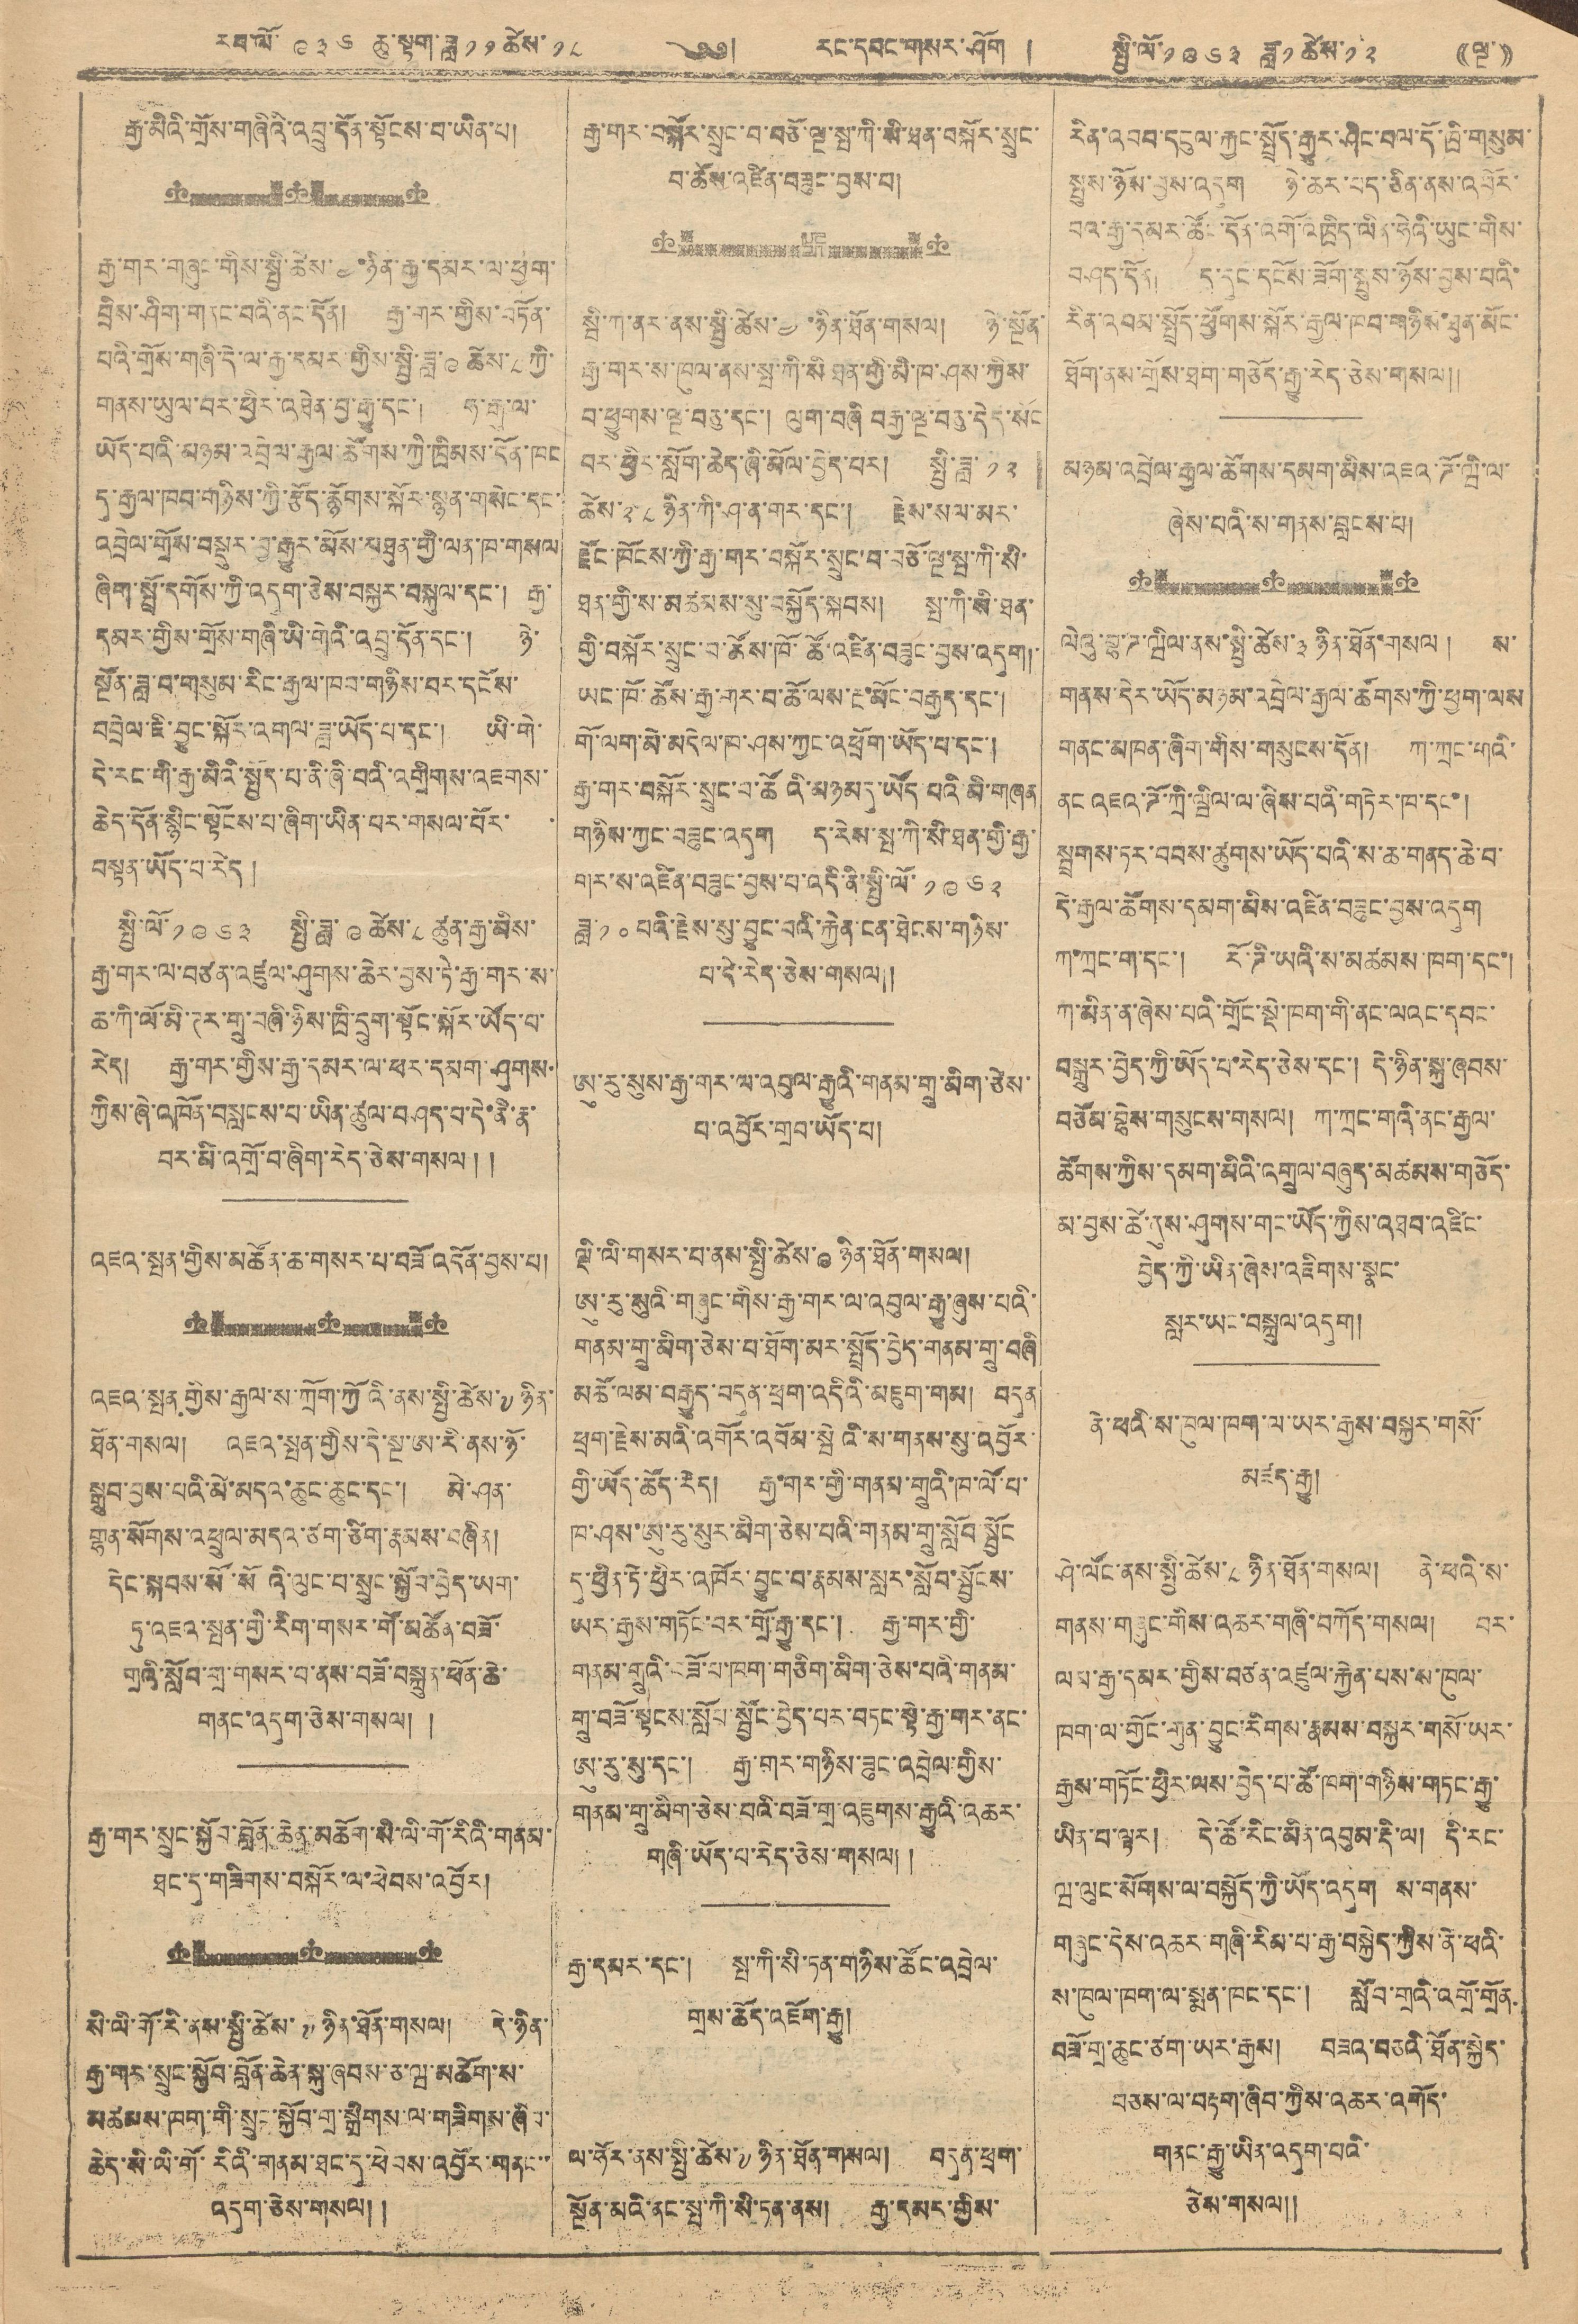རབ་ལོ་ ༩༣༦ ཆུ་སྟག་ཟླ ༡༡ ཚེས་ ༡༨ ༄༅། རང་དབང་གསར་ཤོག ། སྤྱི་ལོ་ ༡༩༦༣ ཟླ་ ༡ ཚེས་ ༡༢ ((ལྔ་))
རྒྱ་མིའི་གྲོས་གཞིའི་འབྲུ་དོན་སྟོངས་པ་ཡིན་པ།
རྒྱ་གར་གཞུང་གིས་སྤྱི་ཚེས་ ༤ ཉིན་རྒྱ་དམར་ལ་ཕྱག་
བྲིས་ཤིག་གནང་བའི་ནང་དོན། རྒྱ་གར་གྱིས་བཏོན་
པའི་གྲོས་གཞི་དེ་ལ་རྒྱ་དམར་གྱིས་སྤྱི་ཟླ་༩ ཚེས་༨ ཀྱི་
གནས་ཡུལ་བར་ཕྱིར་འཐེན་བྱ་རྒྱུ་དང་། ཧ་རྒུ་ལ་
ཡོད་པའི་མཉམ་འབྲེལ་རྒྱལ་ཚོགས་ཀྱི་ཁྲིམས་དོན་ཁང
དུ་རྒྱལ་ཁབ་གཉིས་ཀྱི་རྩོད་རྙོགས་སྐོར་སྙན་གསེང་དང་
འབྲེལ་གྲོས་བསྡུར་བྱ་རྒྱུར་མོས་མཐུན་གྱི་ལན་ཁ་གསལ
ཞིག་སྤྲོ་དགོས་ཀྱི་འདུག་ཅེས་བསྐྱར་བསྐུལ་དང་། རྒྱ་
དམར་གྱིས་གྲོས་གཞི་ཡི་གེའི་འབྲུ་དོན་དང་། ཉེ་
སྔོན་ཟླ་བ་གསུམ་རིང་རྒྱལ་ཁབ་གཉིས་བར་དངོས་
བབྲེལ་ཇི་བྱུང་སྐོར་འགལ་ཟླ་ཡོད་པ་དང་། ཡི་གེ་
དེ་རང་གི་རྒྱ་མིའི་སྤྱོད་པ་ནི་ཞི་བའི་འགྲིགས་འཇགས་
ཆེད་དོན་སྙིང་སྟོངས་པ་ཞིག་ཡིན་པར་གསལ་པོར་
བསྟན་ཡོད་པ་རེད།
སྤྱི་ལོ་ ༡༩༦༣ སྤྱི་ཟླ་ ༩ ཚེས་༨ ཚུན་རྒྱ་མིས་
རྒྱ་གར་ལ་བརྩན་འཛུལ་ཤུགས་ཆེར་བྱས་ཏེ་རྒྱ་གར་ས་
ཆ་ཀི་ལོ་མི་ཊར་གྲུ་བཞི་ཉིས་ཁྲི་དྲུག་སྐོར་ཡོད་པ་
རེད། རྒྱ་གར་གྱིས་རྒྱ་དམར་ལ་ཕར་དམག་ཤུགས་
ཀྱིས་ཞེ་འཁོན་བསླངས་པ་ཡིན་ཚུལ་བཤད་བ་དེ་ནི་རྣ་
བར་མི་འགྲོ་བ་ཞིག་རེད་ཅེས་གསལ ། །
འཇའ་སྤན་གྱིས་མཚོན་ཆ་གསར་པ་བཟོས་འདོན་བྱས་པ།
འཇའ་སྤན གྱིས་རྒྱལ་ས་ཀྲོག་ཀྱོའི་ནས་སྤྱི་ཚེས་༧ ཉིན་
ཐོན་གསལ། འཇའ་སྤན་གྱིས་དེ་སྔ་ཨ་རི་ནས་ཉོ་
སྒྲུབ་བྱས་པའི་མེ་མདའ་ཆུང་ཆུང་དང་། མེ་ཤན་
གྷན་སོགས་འཕྲུལ་མདའ་ཙག་ཙིག་རྣམས་བཞིན།
དེང་སྐབས་སོ་སོའི་ལུང་བ་སྲུང་སྐྱོབ་བྱེད་ཡག་
ཏུ་འཇའ་སྤན་གྱི་རིག་གསར་གོ་མཚོན་བཟོ་
གྲའི་སློབ་གྲ་གསར་པ་ནས་བཟོ་བསྐྲུན་ཕོན་ཆེ་
གནང་འདུག་ཅེས་གསལ། །
རྒྱ་གར་སྲུང་སྐྱོབ་བློན་ཆེན་མཆོག་སི་ལི་གོ་རིའི་གནམ་
ཐང་དུ་གཟིགས་བསྐོར་ལ་ཕེབས་འབྱོར།
སི་ལི་གོ་རི་ནས་སྤྱི་ཚེས་ ༧ ཉིན་ཐོན་གསལ། དེ་ཉིན་
རྒྱ་གར་སྲུང་སྐྱོབ་བློན་ཆེན་སྐུ་ཞབས་ཅ་ཝ་མཆོག་ས་
མཚམས་ཁག་གི་སྲུང་སྐྱོབ་གྲ་སྒྲིགས་ལ་གཟིགས་ཞིབ་
ཆེད་སི་ལི་གོ་རིའི་གནམ་ཐང་དུ་ཕེབས་འབྱོར་གནང་་
འདུག་ཅེས་གསལ། །
རྒྱ་གར་བསྐོར་སྲུང་བ་བཅོ་ལྔ་སྤ་ཀི་སི་ཐན་བསྐོར་སྲུང་
བ་ཚོས་འཛིན་བཟུང་བྱས་པ།
སྦི་ཀ་ནར་ན་སྤྱི་ཚེས་ ༤ ཉིན་ཐོན་གསལ། ཉེ་སྔོན་
རྒྱ་གར་ས་ཁུལ་ནས་སྤ་ཀི་སི་ཐན་གྱི་མི་ཁ་ཤས་ཀྱིས་
བ་ཕྱུགས་ལྔ་བཅུ་དང་། ལུག་བཞི བརྒྱ་ལྔ་བཅུ་དེད་སོང
བར་ཕྱིར་སློག་ཆེད་ཞི་མོལ་བྱེད་པར། སྤྱི་ཟླ་ ༡༢
ཚེས་ ༢༨ ཉིན་ཀི་ཤ་ན་གར་དང་། རྗེས་སལ་མར་
རྫོང་ཁོངས་ཀྱི་རྒྱ་གར་བསྐོར་སྲུང་བ་བཅོ་ལྔ་སྤ་ཀི་སི་
ཐན་གྱི་ས་མཚམས་སུ་བསྐྱོད་སྐབས། སྤ་ཀི་སི་ཐན་
གྱི་བསྐོར་སྲུང་བ་ཚོས་ཁོ་ཚོ་འཛིན་བཟུང་བྱས་འདུག།
ཡང་ཁོ་ཚོས་རྒྱ་གར་བ་ཆོ་ལས་རྔ་མོང་བརྒྱད་དང་།
གོ་ལག་མེ་མདེལ་ཁ་ཤས་ཀྱང་འཕྲོག་ཡོད་པ་དང་།
རྒྱ་གར་བསྐོར་སྲུང་བ་ཚོའི་མཉམདུ་ཡོད་པའི་མི་གཞན
གཉིས་ཀྱང་བཟུང་འདུག ད་རེས་སྤ་ཀི་སི་ཐན་གྱི་རྒྱ་
གར་ས་འཛིན་བཟུང་བྱས་པ་འདི་ནི་སྤྱི་ལོ་ ༡༩༦༢
ཟླ་ ༡༠ པའི་རྗེས་སུ་བྱུང་བའི་རྐྱེན་ངན་ཐེངས་གཉིས་
པ་དེ་རེད་ཅེས་གསལ།།
ཨུ་རུ་སུས་རྒྱ་གར་ལ་འབུལ་རྒྱུའི་གནམ་གྲུ་མིག་ཅེས་
པ་འབྱོར་གྲབ་ཡོད་པ།
ལྡི་ལི་གསར་པ་ནས་སྤྱི་ཚེས་ ༩ ཉིན་ཐོན་གསལ།
ཨུ་རུ་སུའི་གཞུང་གིས་རྒྱ་གར་ལ་འབུལ་རྒྱུ་ཞུས་པའི་
གནམ་གྲུ་མིག་ཅེས་པ་ཐོག་མར་སྤྲོད་བྱེད་གནམ་གྲུ་བཞི
མཚོ་ལམ་བརྒྱུད་བདུན་ཕྲག་འདིའི་མཇུག་གམ། བདུན
ཕྲག་རྗེས་མའི་འགོར་འབོམ་སྦེའི་ས་གནས་སུ་འབྱོར་
གྱི་ཡོད་ཚོད་རེད། རྒྱ་གར་གྱི་གནམ་གྲུའི་ཁ་ལོ་པ་
ཁ་ཤས་ཨུ་རུ་སུར་མིག་ཅེས་པའི་གནམ་གྲུ་སློབ་སྦྱོང
དུ་ཕྱིན་ཏེ་ཕྱིར་འཁོར་བྱུང་བ་རྣམས་སླར་སློབ་སྦྱོངས་
ཡར་རྒྱས་གཏོང་བར་གྲོ་རྒྱུ་དང་། རྒྱ་གར་གྱི་
གནམ་གྲུའི་བཟོ་ཁག་གཅིག་མིག་ཅེས་པའི་གནམ་
གྲུ་བཟོ་སྟངས་སློབ་སྦྱོང་བྱེད་པར་བཏང་སྟེ་རྒྱ་གར་ནང་
ཨུ་རུ་སུ་དང་། རྒྱ་གར་གཉིས་ཟུང་འབྲེལ་གྱིས་
གནམ་གྲུ་མིག་ཅེས་པའི་བཟོ་གྲ་འཛུགས་རྒྱུའི་འཆར་
གཞི་ཡོད་པ་རེད་ཅེས་གསལ། །
རྒྱ་དམར་དང་། སྤ་ཀི་སི་ཏན་གཉིས་ཚོང་འབྲེལ་
གྲས་ཆོད་འཇོག་རྒྱུ།
ལ་ཧོར་ནས་སྤྱི་ཚེས་ ༧ ཉིན་ཐོན་གསལ། བདུན་ཕྲག་
སྔོན་མའི་ནང་སྤ་ཀི་སི་ཏན་ནས། རྒྱ་དམར་གྱིས་
རིན་འབབ་དངུལ་རྐྱང་སྤྲོད་རྒྱུར་ཤིང་བལ་དོ་ཁྲི་གསུམ་
སྤུས་ཉོས་བྱས་འདུག ཉེ་ཆར་པད་ཅིན་ནས་འབོར་
བའི་རྒྱ་དམར་ཚོང་དོན་འགོ་འཁྲིད་ལིན་ཧེའི་ཡུང་གིས་
བཤད་དོན། ད་དུང་དངོས་ཟོག་སྤུས་ཉོས་བྱས་པའི་
རིན་འབམ་སྤྲོད་ཕྱོགས་སྐོར་རྒྱལ་ཁབ་གཉིས་ཐུན་མོང་
ཐོག་ནས་གྲོས་ཐག་གཅོད་རྒྱུ་རེད་ཅེས་གསལ།།
མཉམ་འབྲེལ་རྒྱལ་ཚོགས་དམག་མིས་འཇའ་ཌོ་ལྦི་ལ་
ཞེས་པའི་ས་གནས་བླངས་པ།
ལེའུ་བྷ་ཌ་ལྦིལ་ནས་སྤྱི་ཚེས་ ༣ ཉིན་ཐོན་གསལ། ས་
གནས་དེར་ཡོད་མཉམ་འབྲེལ་རྒྱལ་ཚོགས་ཀྱི་ཕྱག་ལས
གནང་མཁན་ཞིག་གི་གསུངས་དོན། ཀ་ཀྲང་གའི་
ནང འཇའ་ཌོ་ཀྲི་ཝིལ་ལ་ཞེས་པའི་གཏེར་ཁ་དང་།
སྦྲགས་ཏར་བབས་ཚུགས་ཡོད་པའི་ས་ཆ་གནད་ཆེ་བ་
དེ་རྒྱལ་ཚོགས་དམག་མིས་འཛིན་བཟུང་བྱས་འདུག
ཀ་ཀྲང་ག་དང་། རོ་ཌི་ཡའི་ས་མཚམས་ཁག་དང་།
ཀ་མིན་ན་ཞེས་པའི་གྲོང་སྡེ་ཁག་གི་ནང་ལའང་དབང་
བསྒྱུར་བྱེད་ཀྱི་ཡོད་པ་རེད་ཅེས་དང་། དེ་ཉིན་སྐུ་ཞབས་
བཅོམ་བྷེས་གསུངས་གསལ། ཀ་ཀྲང་གའི་ནང་རྒྱལ་
ཚོགས་ཀྱིས་དམག་མིའི་འགྲུལ་བཞུད་མཚམས་གཅོད་
མ་བྱས་ཚེ་ནས་ཤུགས་གང་ཡོད་ཀྱིས་འཐབ་འཛིང་
བྱེད་ཀྱི་ཡིན་ཞེས་འཇིགས་སྣང་
སླར་ཡང་བསྐྲུལ་འདུག།
ནེ་ཕའི་ས་ཁུལ་ཁག་ལ་ཡར་རྒྱས་བསྐྱར་གསོ་
མཛད་རྒྱུ།
ཤེ་ལོང་ནས་སྤྱི་ཚེས་ ༨ ཉིན་ཐོན་གསལ། ནེ་ཕའི་ས་
གནས་གཞུང་གིས་འཆར་གཞི་བཀོད་གསལ། བར་
ལམ་རྒྱ་དམར་གྱིས་བཙན་འཛུལ་རྐྱེན་པས་ས་ཁུལ་
ཁག་ལ་གྱོང་གུན་བྱུང་རིགས་རྣམས་བསྐྱར་གསོ་ཡར་
རྒྱས་གཏོང་ཕྱིར་ལས་བྱེད་པ་ཚོ་ཁག་གཉིས་གཏང་རྒྱུ་
ཡིན་པ་ལྟར། དེ་ཚོ་རིང་མིན་འབུམ་རྡི་ལ། དེ་རིང་
ཝ་ལུང་སོགས་ལ་བསྐྱོད་ཀྱི་ཡོད་འདུག ས་གནས་
གཞུང་དེས་འཆར་གཞི་རིམ་པ་རྒྱ་བསྐྱེད་ཀྱིས་ནི་ཕའི་
ས་ཁུལ་ཁག་ལ་སྨན་ཁང་དང་། སློབ་གྲའི་འགྲོ་གྲོན
བཟོ་གྲ་ཆུང་ཙག་ཡར་རྒྱས། བཟའ་བཅའི་ཐོན་སྐྱེད་
བཅས་ལ་བརྟག་ཞིབ་ཀྱིས་འཆར་འགོད་
གནང་རྒྱུ་ཡིན་འདུག་པའི་
ཅེས་གསལ།།
